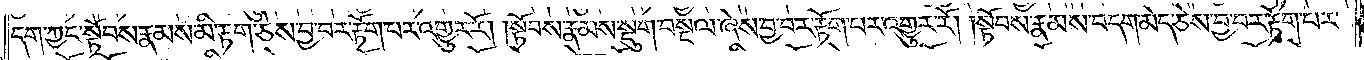དག་ཀྱང་སྟོབས་རྣམས་མི་རྟག་ཅེས་བྱ་བར་རྟོག་པར་འགྱུར་རོ། །སྟོབས་རྣམས་སྡུག་བསྔལ་ཞེས་བྱ་བར་རྟོག་པར་འགྱུར་རོ། །སྟོབས་རྣམས་བདག་མེད་ཅེས་བྱ་བར་རྟོག་པར་
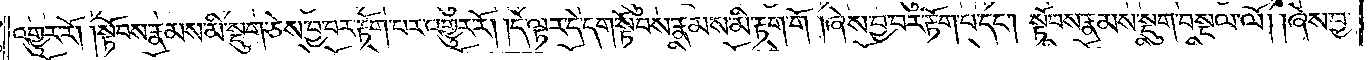འགྱུར་རོ། །སྟོབས་རྣམས་མི་སྡུག་ཅེས་བྱ་བར་རྟོག་པར་འགྱུར་རོ། །དེ་ལྟར་དེ་དག་སྟོབས་རྣམས་མི་རྟག་གོ །ཞེས་བྱ་བར་རྟོག་པ་དང༌། སྟོབས་རྣམས་སྡུག་བསྔལ་ལོ། །ཞེས་བྱ་
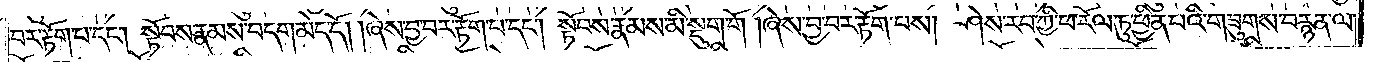བར་རྟོག་པ་དང༌། སྟོབས་རྣམས་བདག་མེད་དོ། །ཞེས་བྱ་བར་རྟོག་པ་དང༌། སྟོབས་རྣམས་མི་སྡུག་གོ །ཞེས་བྱ་བར་རྟོག་པས། ཤེས་རབ་ཀྱི་ཕ་རོལ་ཏུ་ཕྱིན་པའི་གཟུགས་བརྙན་ལ་
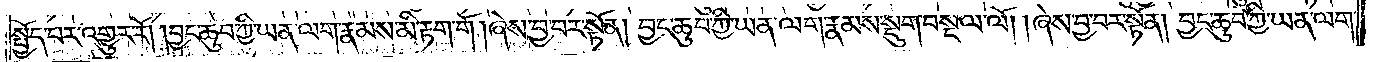སྤྱོད་པར་འགྱུར་རོ། །བྱང་ཆུབ་ཀྱི་ཡན་ལག་རྣམས་མི་རྟག་གོ །ཞེས་བྱ་བར་སྟོན། བྱང་ཆུབ་ཀྱི་ཡན་ལག་རྣམས་སྡུག་བསྔལ་ལོ། །ཞེས་བྱ་བར་སྟོན། བྱང་ཆུབ་ཀྱི་ཡན་ལག་
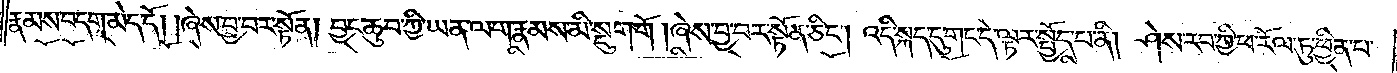རྣམས་བདག་མེད་དོ། །ཞེས་བྱ་བར་སྟོན། བྱང་ཆུབ་ཀྱི་ཡན་ལག་རྣམས་མི་སྡུག་གོ །ཞེས་བྱ་བར་སྟོན་ཅིང༌། འདི་སྐད་དུ་གང་དེ་ལྟར་སྤྱོད་པ་ནི། ཤེས་རབ་ཀྱི་ཕ་རོལ་ཏུ་ཕྱིན་པ་
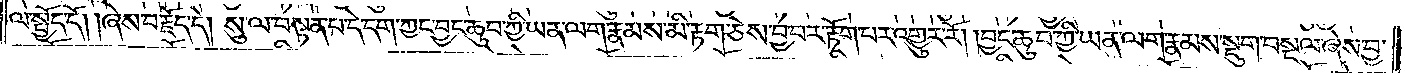ལ་སྤྱོད་དོ། །ཞེས་བརྗོད་དེ། སུ་ལ་བསྟན་པ་དེ་དག་ཀྱང་བྱང་ཆུབ་ཀྱི་ཡན་ལག་རྣམས་མི་རྟག་ཅེས་བྱ་བར་རྟོག་པར་འགྱུར་རོ། །བྱང་ཆུབ་ཀྱི་ཡན་ལག་རྣམས་སྡུག་བསྔལ་ཞེས་བྱ་
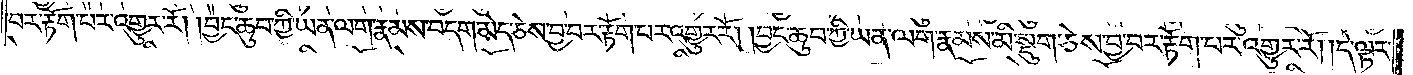བར་རྟོག་པར་འགྱུར་རོ། །བྱང་ཆུབ་ཀྱི་ཡན་ལག་རྣམས་བདག་མེད་ཅེས་བྱ་བར་རྟོག་པར་འགྱུར་རོ། །བྱང་ཆུབ་ཀྱི་ཡན་ལག་རྣམས་མི་སྡུག་ཅེས་བྱ་བར་རྟོག་པར་འགྱུར་རོ། །དེ་ལྟར་
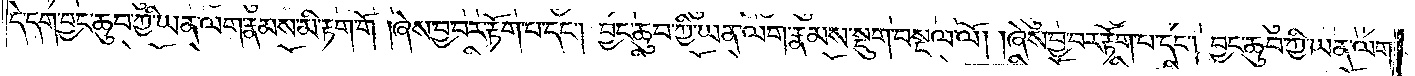དེ་དག་བྱང་ཆུབ་ཀྱི་ཡན་ལག་རྣམས་མི་རྟག་གོ །ཞེས་བྱ་བར་རྟོག་པ་དང༌། བྱང་ཆུབ་ཀྱི་ཡན་ལག་རྣམས་སྡུག་བསྔལ་ལོ། །ཞེས་བྱ་བར་རྟོག་པ་དང༌། བྱང་ཆུབ་ཀྱི་ཡན་ལག་
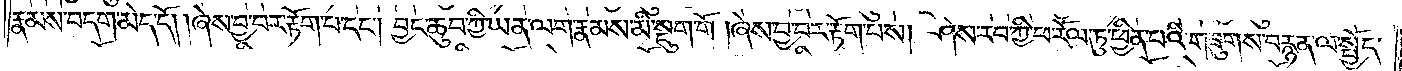རྣམས་བདག་མེད་དོ། །ཞེས་བྱ་བར་རྟོག་པ་དང༌། བྱང་ཆུབ་ཀྱི་ཡན་ལག་རྣམས་མི་སྡུག་གོ །ཞེས་བྱ་བར་རྟོག་པས། ཤེས་རབ་ཀྱི་ཕ་རོལ་ཏུ་ཕྱིན་པའི་གཟུགས་བརྙན་ལ་སྤྱོད་
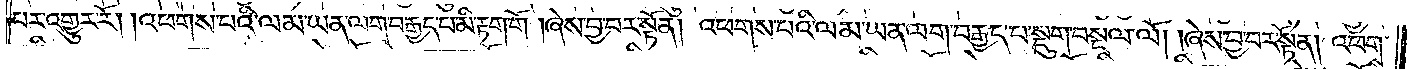པར་འགྱུར་རོ། །འཕགས་པའི་ལམ་ཡན་ལག་བརྒྱད་པ་མི་རྟག་གོ །ཞེས་བྱ་བར་སྟོན། འཕགས་པའི་ལམ་ཡན་ལག་བརྒྱད་པ་སྡུག་བསྔལ་ལོ། །ཞེས་བྱ་བར་སྟོན། འཕགས་
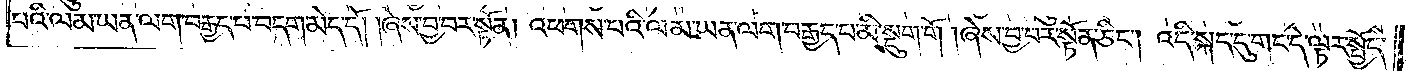པའི་ལམ་ཡན་ལག་བརྒྱད་པ་བདག་མེད་དོ། །ཞེས་བྱ་བར་སྟོན། འཕགས་པའི་ལམ་ཡན་ལག་བརྒྱད་པ་མི་སྡུག་གོ །ཞེས་བྱ་བར་སྟོན་ཅིང༌། འདི་སྐད་དུ་གང་དེ་ལྟར་སྤྱོད་
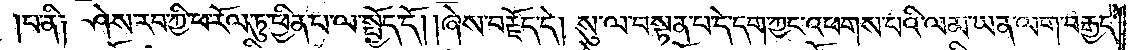པ་ནི༑ ཤེས་རབ་ཀྱི་ཕ་རོལ་ཏུ་ཕྱིན་པ་ལ་སྤྱོད་དོ། །ཞེས་བརྗོད་དེ། སུ་ལ་བསྟན་པ་དེ་དག་ཀྱང་འཕགས་པའི་ལམ་ཡན་ལག་བརྒྱད་
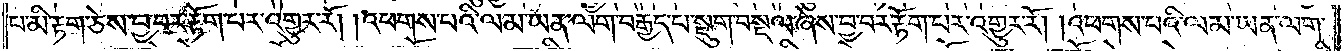པ་མི་རྟག་ཅེས་བྱ་བར་རྟོག་པར་འགྱུར་རོ། །འཕགས་པའི་ལམ་ཡན་ལག་བརྒྱད་པ་སྡུག་བསྔལ་ཞེས་བྱ་བར་རྟོག་པར་འགྱུར་རོ། །འཕགས་པའི་ལམ་ཡན་ལག་
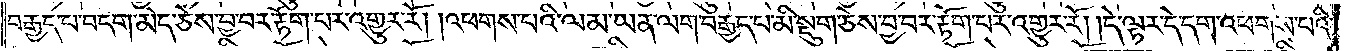བརྒྱད་པ་བདག་མེད་ཅེས་བྱ་བར་རྟོག་པར་འགྱུར་རོ། །འཕགས་པའི་ལམ་ཡན་ལག་བརྒྱད་པ་མི་སྡུག་ཅེས་བྱ་བར་རྟོག་པར་འགྱུར་རོ། །དེ་ལྟར་དེ་དག་འཕགས་པའི་
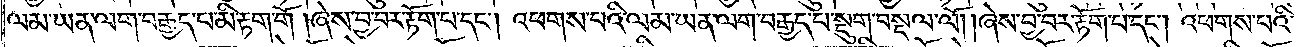ལམ་ཡན་ལག་བརྒྱད་པ་མི་རྟག་གོ །ཞེས་བྱ་བར་རྟོག་པ་དང༌། འཕགས་པའི་ལམ་ཡན་ལག་བརྒྱད་པ་སྡུག་བསྔལ་ལོ། །ཞེས་བྱ་བར་རྟོག་པ་དང༌། འཕགས་པའི་
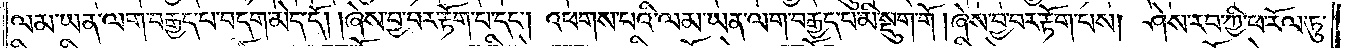ལམ་ཡན་ལག་བརྒྱད་པ་བདག་མེད་དོ། །ཞེས་བྱ་བར་རྟོག་པ་དང༌། འཕགས་པའི་ལམ་ཡན་ལག་བརྒྱད་པ་མི་སྡུག་གོ །ཞེས་བྱ་བར་རྟོག་པས། ཤེས་རབ་ཀྱི་ཕ་རོལ་ཏུ་
